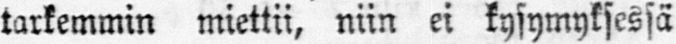tarkemmin miettii, niin ei kysymyksessä
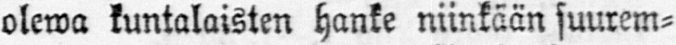olewa kuntalaisten hanke niinkään suurem-
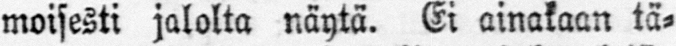moisesti jalolta näytä. Ei ainakaan tä-
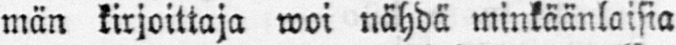män kirjoittaja woi nähdä minkäänlaisia
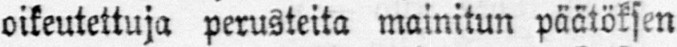oikeutettuja perusteita mainitun päätöksen
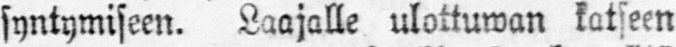syntymiseen. Laajalle ulottuwan katseen
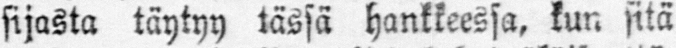sijasta täytyy tässä hankkeessa, kun sitä
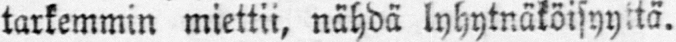tarkemmin miettii, nähdä lyhytnäköisyyttä.
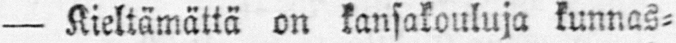— Kieltämättä on kansakouluja kunnas-
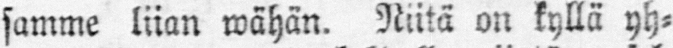samme liian wähän. Niitä on kyllä yh-
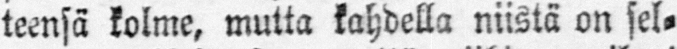teensä kolme, mutta kahdella niistä on sel-
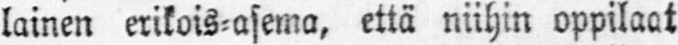lainen erikois-asema, että niihin oppilaat
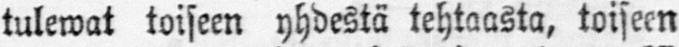tulewat toiseen yhdestä tehtaasta, toiseen
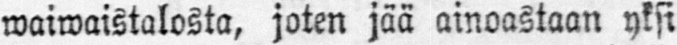waiwaistalosta, joten jää ainoastaan yksi
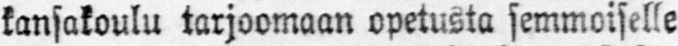kansakoulu tarjoomaan opetusta semmoiselle
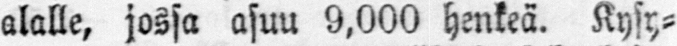alalle, jossa asuu 9,000 henkeä. Kysy-
